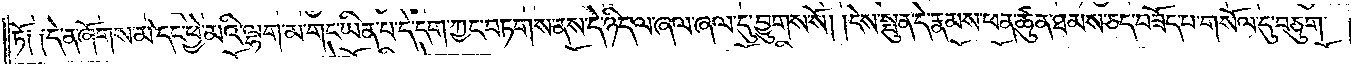ཏོ༑ ༑དེ་ན་ཞོགས་མ་དང་ཕྱེ་མའི་ལྷག་མ་གང་ཡིན་པ་དེ་དག་ཀྱང་བཏགས་ནས་དེ་ཉིད་ལ་ཞལ་ཞལ་དུ་བྱུགས་སོ། །དེས་སྤུན་དེ་རྣམས་ཕན་ཚུན་ཐམས་ཅད་བཟོད་པ་གསོལ་དུ་བཅུག་
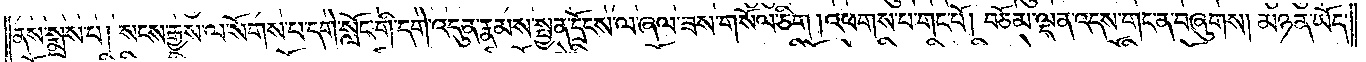ནས་སྨྲས་པ། སངས་རྒྱས་ལ་སོགས་པ་དགེ་སློང་གི་དགེ་འདུན་རྣམས་སྤྱན་དྲོངས་ལ་ཞལ་ཟས་གསོལ་ཅིག །འཕགས་པ་གང་པོ། བཅོམ་ལྡན་འདས་གང་ན་བཞུགས། མཉན་ཡོད་
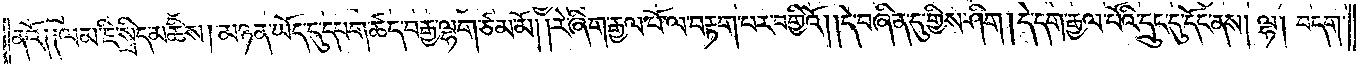ནའོ༑ ༑ལམ་ཇི་སྲིད་མཆིས། མཉན་ཡོད་དུ་དཔག་ཚད་བརྒྱ་ལྷག་ཙམ་མོ། །རེ་ཞིག་རྒྱལ་པོ་ལ་བརྟག་པར་བགྱིའོ། །དེ་བཞིན་དུ་གྱིས་ཤིག །དེ་དག་རྒྱལ་པོའི་དྲུང་དུ་དོང་ནས། ལྷ། བདག་
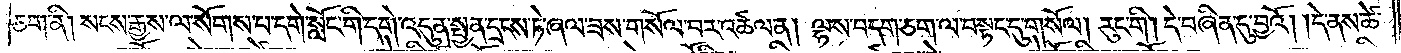ཅག་ནི། སངས་རྒྱས་ལ་སོགས་པ་དགེ་སློང་གི་དགེ་འདུན་སྤྱན་དྲངས་ཏེ་ཞལ་ཟས་གསོལ་བར་འཚལ་ན། ལྷས་བདག་ཅག་ལ་བསྟད་དུ་གསོལ། རུང་གི། དེ་བཞིན་དུ་བྱའོ། །དེ་ནས་ཚེ་
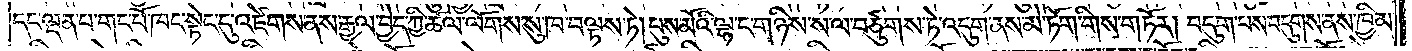དང་ལྡན་པ་གང་པོ་ཁང་སྟེང་དུ་འཛེགས་ནས་རྒྱལ་བྱེད་ཀྱི་ཚལ་ལོགས་སུ་ཁ་བལྟས་ཏེ། པུས་མོའི་ལྷ་ང་གཉིས་ས་ལ་བཙུགས་ཏེ་འདུག་ནས་མེ་ཏོག་གིས་གཏོར། བདུག་པས་བདུགས་ནས་ཁྱིམ་
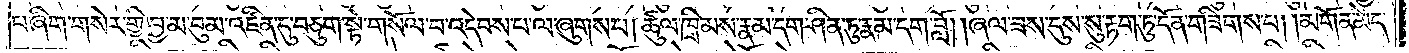པ་ཞིག་གསེར་གྱི་བྱ་མ་བུམ་འཛིན་དུ་བཅུག་སྟེ་གསོལ་པ་འདེབས་པ་ལ་ཞུགས་པ། ཚུལ་ཁྲིམས་རྣམ་དག་ཤིན་ཏུ་རྣམ་དག་བློ། །ཞལ་ཟས་དུས་སུ་རྟག་ཏུ་དོན་གཟིགས་པ། །མགོན་མེད་
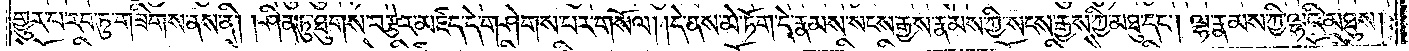གྱུར་པ་རབ་ཏུ་གཟིགས་ནས་ནི། །ཤིན་ཏུ་ཐུགས་བརྩེར་མཛད་དེ་གཤེགས་པར་གསོལ། །དེ་ནས་མེ་ཏོག་དེ་རྣམས་སངས་རྒྱས་རྣམས་ཀྱི་སངས་རྒྱས་ཀྱི་མཐུ་དང༌། ལྷ་རྣམས་ཀྱི་ལྷའི་མཐུས་
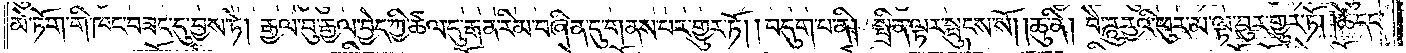མེ་ཏོག་གི་ཁང་བཟང་དུ་བྱས་ཏེ། རྒྱལ་བུ་རྒྱལ་བྱེད་ཀྱི་ཚལ་དུ་རྒན་རིམ་བཞིན་དུ་གནས་པར་གྱུར་ཏོ། །བདུག་པ་ནི། སྤྲིན་ལྟར་སྤུངས་སོ། །ཆུ་ནི། བཻ་ཌཱུརྱའི་ཕུར་མ་ལྟ་བུར་གྱུར་ཏོ། །ཚེ་དང་
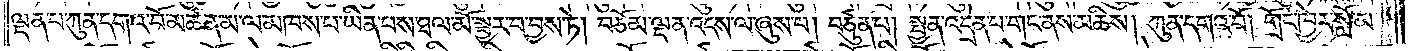ལྡན་པ་ཀུན་དགའ་བོ་མཚན་མ་ལ་མཁས་པ་ཡིན་པས་ཐལ་མོ་སྦྱར་བ་བྱས་ཏེ། བཅོམ་ལྡན་འདས་ལ་ཞུས་པ། བཙུན་པ། སྤྱན་འདྲེན་པ་གང་ནས་མཆིས། ཀུན་དགའ་བོ། གྲོང་ཁྱེར་སློ་མ་
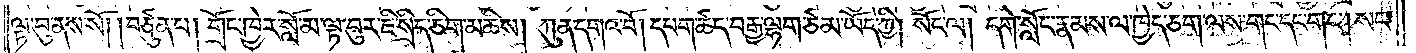ལྟ་བུ་ནས་སོ། །བཙུན་པ། གྲོང་ཁྱེར་སློ་མ་ལྟ་བུར་ཇི་སྲིད་ཅིག་མཆིས། ཀུན་དགའ་བོ། དཔག་ཚད་བརྒྱ་ལྷག་ཙམ་ཡོད་ཀྱི། སོང་ལ། དགེ་སློང་རྣམས་ལ་ཁྱེད་ཅག་ལས་གང་དང་གང༌། སང་
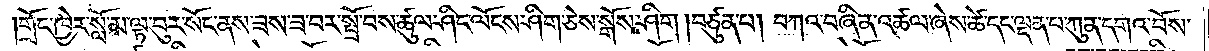གྲོང་ཁྱེར་སློ་མ་ལྟ་བུར་སོང་ནས་ཟས་ཟ་བར་སྤྲོ་བས་ཚུལ་ཤིང་ལོངས་ཤིག་ཅེས་སྒོས་ཤིག །བཙུན་པ། བཀའ་བཞིན་འཚལ་ཞེས་ཚེ་དང་ལྡན་པ་ཀུན་དགའ་བོས་
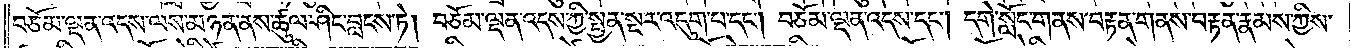བཅོམ་ལྡན་འདས་ལས་མཉན་ནས་ཚུལ་ཤིང་བླངས་ཏེ། བཅོམ་ལྡན་འདས་ཀྱི་སྤྱན་སྔར་འདུག་པ་དང༌། བཅོམ་ལྡན་འདས་དང༌། དགེ་སློང་གནས་བརྟན་གནས་བརྟན་རྣམས་ཀྱིས་
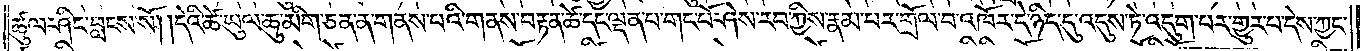ཚུལ་ཤིང་བླངས་སོ། །དེའི་ཚེ་ཡུལ་ཆུ་མིག་ཅན་ན་གནས་པའི་གནས་བརྟན་ཚེ་དང་ལྡན་པ་གང་པོ་ཤེས་རབ་ཀྱིས་རྣམ་པར་གྲོལ་བ་འཁོར་དེ་ཉིད་དུ་འདུས་ཏེ་འདུག་པར་གྱུར་པ་དེས་ཀྱང་
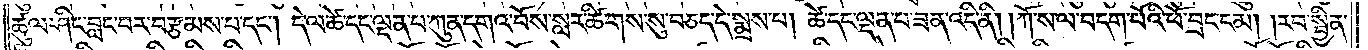ཚུལ་ཤིང་བླང་བར་བརྩམས་པ་དང༌། དེ་ལ་ཚེ་དང་ལྡན་པ་ཀུན་དགའ་བོས་སླར་ཚིགས་སུ་བཅད་དེ་སྨྲས་པ། ཚེ་དང་ལྡན་པ་ཟན་འདི་ནི། །ཀོ་ས་ལ་བདག་པོའི་ཕོ་བྲང་ངམ། །རབ་སྦྱིན་
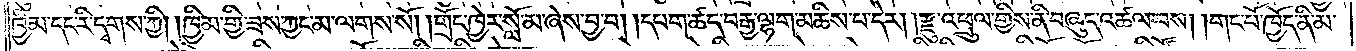ཁྱིམ་དང་རི་དྭགས་ཀྱི། །ཁྱིམ་གྱི་ཟས་ཀྱང་མ་ལགས་སོ། །གྲོང་ཁྱེར་སློ་མ་ཞེས་བྱ་བ། །དཔག་ཚད་བརྒྱ་ལྷག་མཆིས་པ་དེར། །རྫུ་འཕྲུལ་གྱིས་ནི་བཞུད་འཚལ་བས། །གང་པོ་ཁྱོད་ནི་མ་
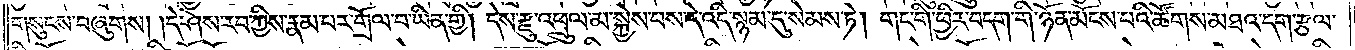གསུངས་བཞུགས། །དེ་ཤེས་རབ་ཀྱིས་རྣམ་པར་གྲོལ་བ་ཡིན་གྱི། དེས་རྫུ་འཕྲུལ་མ་སྐྱེས་པས་དེ་འདི་སྙམ་དུ་སེམས་ཏེ། གང་གི་ཕྱིར་བདག་གི་ཉོན་མོངས་པའི་ཚོགས་མཐའ་དག་རྩལ་
